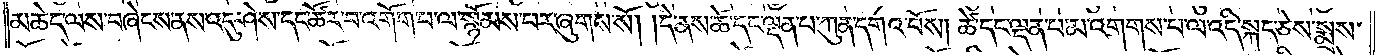མཆེད་ལས་བཞེངས་ནས་འདུ་ཤེས་དང་ཚོར་བ་འགོག་པ་ལ་སྙོམས་པར་ཞུགས་སོ། །དེ་ནས་ཚེ་དང་ལྡན་པ་ཀུན་དགའ་བོས། ཚེ་དང་ལྡན་པ་མ་འགགས་པ་ལ་འདི་སྐད་ཅེས་སྨྲས་
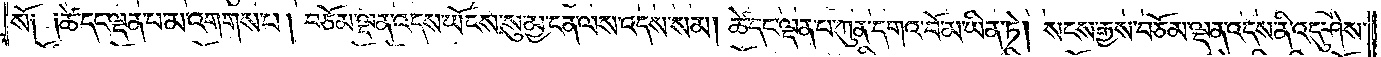སོ༑ ༑ཚེ་དང་ལྡན་པ་མ་འགགས་པ། བཅོམ་ལྡན་འདས་ཡོངས་སུ་མྱ་ངན་ལས་འདས་སམ། ཚེ་དང་ལྡན་པ་ཀུན་དགའ་བོ་མ་ཡིན་ཏེ། སངས་རྒྱས་བཅོམ་ལྡན་འདས་ནི་འདུ་ཤེས་
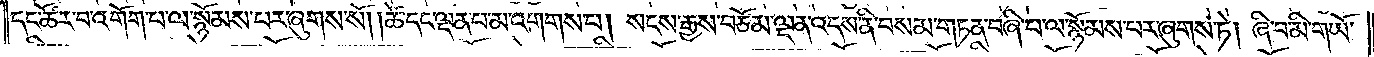དང་ཚོར་བ་འགོག་པ་ལ་སྙོམས་པར་ཞུགས་སོ། །ཚེ་དང་ལྡན་པ་མ་འགགས་པ། སངས་རྒྱས་བཅོམ་ལྡན་འདས་ནི་བསམ་གཏན་བཞི་བ་ལ་སྙོམས་པར་ཞུགས་ཏེ། ཞི་བ་མི་གཡོ་
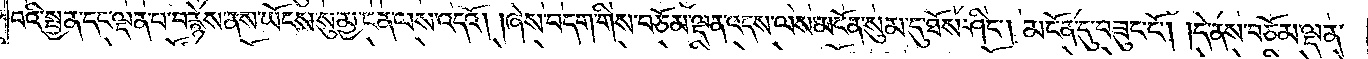བའི་སྤྱན་དང་ལྡན་པ་བརྙེས་ནས་ཡོངས་སུ་མྱ་ངན་ལས་འདའོ། །ཞེས་བདག་གིས་བཅོམ་ལྡན་འདས་ལས་མངོན་སུམ་དུ་ཐོས་ཤིང༌། མངོན་དུ་བཟུང་ངོ༌། །དེ་ནས་བཅོམ་ལྡན་
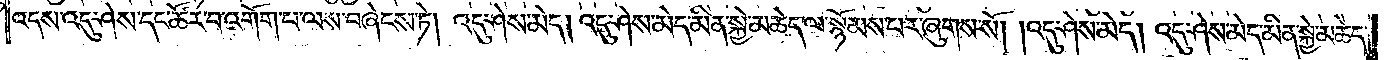འདས་འདུ་ཤེས་དང་ཚོར་བ་འགོག་པ་ལས་བཞེངས་ཏེ། འདུ་ཤེས་མེད། འདུ་ཤེས་མེད་མིན་སྐྱེ་མཆེད་ལ་སྙོམས་པར་ཞུགས་སོ། །འདུ་ཤེས་མེད། འདུ་ཤེས་མེད་མིན་སྐྱེ་མཆེད་
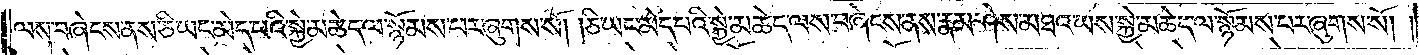ལས་བཞེངས་ནས་ཅི་ཡང་མེད་པའི་སྐྱེ་མཆེད་ལ་སྙོམས་པར་ཞུགས་སོ། །ཅི་ཡང་མེད་པའི་སྐྱེ་མཆེད་ལས་བཞེངས་ནས་རྣམ་ཤེས་མཐའ་ཡས་སྐྱེ་མཆེ་ད་ལ་སྙོམས་པར་ཞུགས་སོ། །
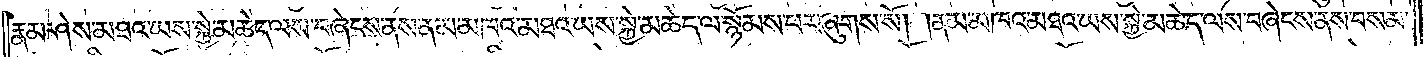རྣམ་ཤེས་མཐའ་ཡས་སྐྱེ་མཆེད་ལས་བཞེངས་ནས་ནམ་མཁའ་མཐའ་ཡས་སྐྱེ་མཆེད་ལ་སྙོམས་པར་ཞུགས་སོ། །ནམ་མཁའ་མཐའ་ཡས་སྐྱེ་མཆེད་ལས་བཞེངས་ནས་བསམ་
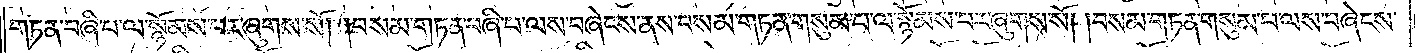གཏན་བཞི་པ་ལ་སྙོམས་པར་ཞུགས་སོ། །བསམ་གཏན་བཞི་པ་ལས་བཞེངས་ནས་བསམ་གཏན་གསུམ་པ་ལ་སྙོམས་པར་ཞུགས་སོ། །བསམ་གཏན་གསུམ་པ་ལས་བཞེངས་
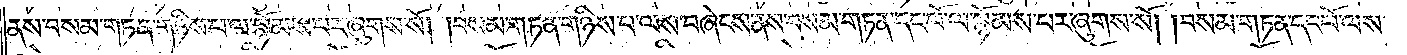ནས་བསམ་གཏན་གཉིས་པ་ལ་སྙོམས་པར་ཞུགས་སོ། །བསམ་གཏན་གཉིས་པ་ལས་བཞེངས་ནས་བསམ་གཏན་དང་པོ་ལ་སྙོམས་པར་ཞུགས་སོ། །བསམ་གཏན་དང་པོ་ལས་
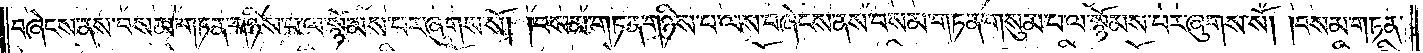བཞེངས་ནས་བསམ་གཏན་གཉིས་པ་ལ་སྙོམས་པར་ཞུགས་སོ། །བསམ་གཏན་གཉིས་པ་ལས་བཞེངས་ནས་བསམ་གཏན་གསུམ་པ་ལ་སྙོམས་པར་ཞུགས་སོ། །བསམ་གཏན་
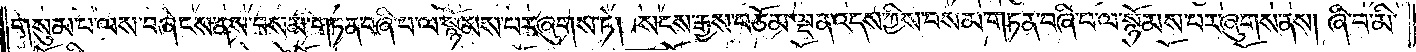གསུམ་པ་ལས་བཞེངས་ནས་བསམ་གཏན་བཞི་བ་ལ་སྙོམས་པར་ཞུགས་ཏེ། སངས་རྒྱས་བཅོམ་ལྡན་འདས་ཀྱིས་བསམ་གཏན་བཞི་པ་ལ་སྙོམས་པར་ཞུགས་ནས། ཞི་བ་མི་
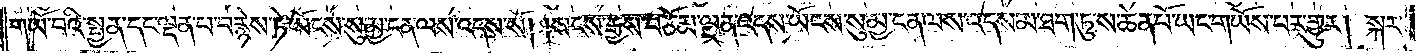གཡོ་བའི་སྤྱན་དང་ལྡན་པ་བརྙེས་ཏེ་ཡོངས་སུ་མྱ་ངན་ལས་འདས་སོ། །སངས་རྒྱས་བཅོམ་ལྡན་འདས་ཡོངས་སུ་མྱ་ངན་ལས་འདས་མ་ཐག་ཏུ་ས་ཆེན་པོ་ཡང་གཡོས་པར་གྱུར། སྐར་
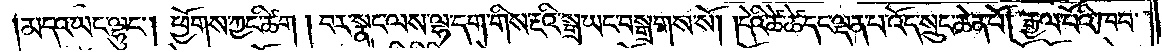མདའ་ཡང་ལྷུང༌། ཕྱོགས་ཀྱང་ཚིག །བར་སྣང་ལས་ལྷ་དག་གིས་རྔའི་སྒྲ་ཡང་བསྒྲགས་སོ། །དེའི་ཚེ་ཚེ་དང་ལྡན་པ་འོད་སྲུང་ཆེན་པོ། རྒྱལ་པོའི་ཁབ་
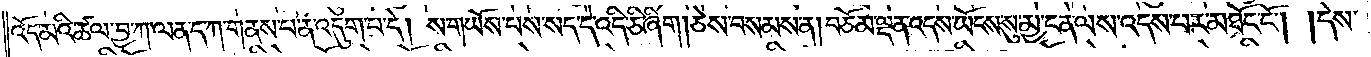འོད་མའི་ཚལ་བྱ་ཀ་ལན་ད་ཀ་གནས་པ་ན་འདུག་པ་དེ། ས་གཡོས་པས་སད་དེ་འདི་ཅི་ཞིག །ཅེས་བསམས་ན། བཅོམ་ལྡན་འདས་ཡོངས་སུ་མྱ་ངན་ལས་འདས་པར་མཐོང་ངོ༌། །དེས་
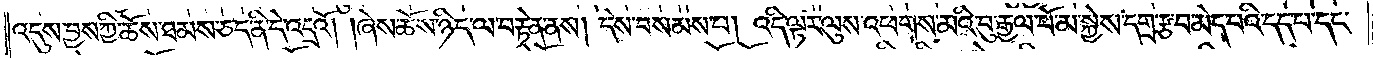འདུས་བྱས་ཀྱི་ཆོས་ཐམས་ཅད་ནི་དེ་འདྲའོ། །ཞེས་ཆོས་ཉིད་ལ་བརྟེན་ནས། དེས་བསམས་པ། འདི་ལྟར་ལུས་འཕགས་མའི་བུ་རྒྱལ་པོ་མ་སྐྱེས་དགྲ་རྩ་བ་མེད་པའི་དད་པ་དང་
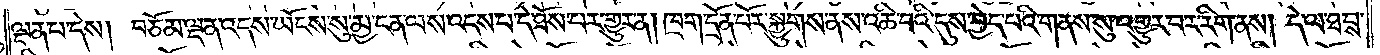ལྡན་པ་དེས། བཅོམ་ལྡན་འདས་ཡོངས་སུ་མྱ་ངན་ལས་འདས་པ་དེ་ཐོས་པར་གྱུར་ན། ཁྲག་དྲོན་པོར་སྐྱུགས་ནས་འཆི་བའི་དུས་བྱེད་པའི་གནས་སུ་འགྱུར་བར་རིག་ནས། དེ་ལ་ཐབས་
